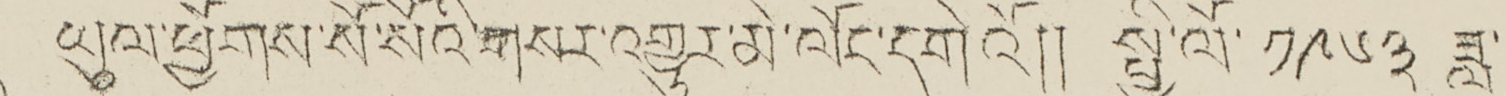ཡུལ་ཕྱོགས་སོ་སོའི་གསར་འགྱུར་མེ་ལོང་དགེའོ།། སྤྱི་ལོ་ ༡༩༦༣ ཟླ་བ་
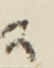༢
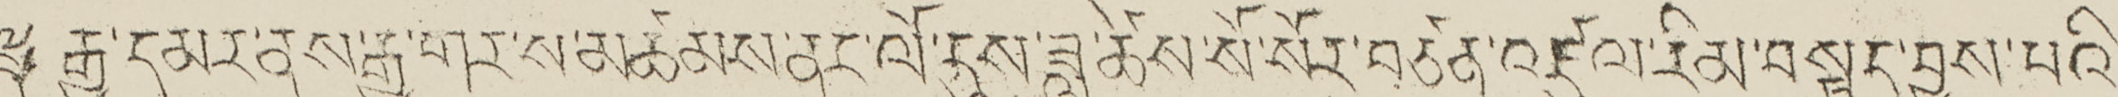༈ རྒྱ་དམར་ནས་རྒྱ་གར་ས་མཚམས་ནང་ལོ་དུས་ཟླ་ཚེས་སོ་སོར་བཙན་འཛུལ་རིམ་བསྟུན་བྱས་པའི་
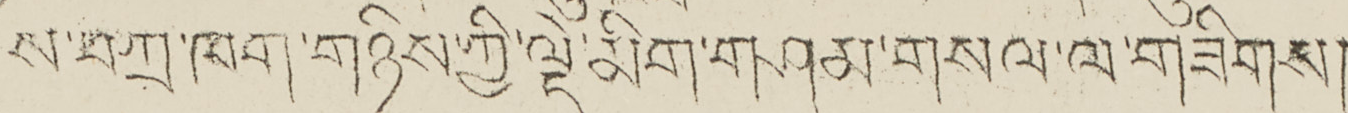ས་བཀྲ་ཁག་གཉིས་ཀྱི་ལྡི་མིག་གཤམ་གསལ་ལ་གཟིགས།
